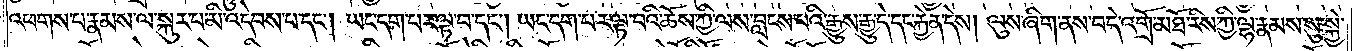འཕགས་པ་རྣམས་ལ་སྐུར་པ་མི་འདེབས་པ་དང༌། ཡང་དག་པར་ལྟ་བ་དང༌། ཡང་དག་པར་ལྟ་བའི་ཆོས་ཀྱི་ལས་བླངས་པའི་རྒྱུས་རྒྱུ་དེ་དང་རྐྱེན་དེས། ལུས་ཞིག་ནས་བདེ་འགྲོ་མཐོ་རིས་ཀྱི་ལྷ་རྣམས་སུ་སྐྱེ་
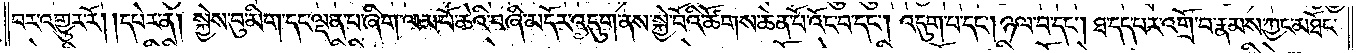བར་འགྱུར་རོ། །དཔེར་ན། སྐྱེས་བུ་མིག་དང་ལྡན་པ་ཞིག་ལམ་པོ་ཆེའི་བཞི་མདོར་འདུག་ནས་སྐྱེ་བོའི་ཚོགས་ཆེན་པོ་འོང་བ་དང༌། འདུག་པ་དང༌། ཉལ་བ་དང༌། ཐ་དད་པར་འགྲོ་བ་རྣམས་ཀྱང་མཐོང་
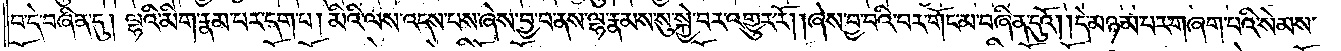བ་དེ་བཞིན་དུ། ལྷའི་མིག་རྣམ་པར་དག་པ། མིའི་ལས་འདས་པས་ཞེས་བྱ་བ་ནས་ལྷ་རྣམས་སུ་སྐྱེ་བར་འགྱུར་རོ། །ཞེས་བྱ་བའི་བར་གོང་མ་བཞིན་དུའོ། །དེ་མཉམ་པར་གཞག་པའི་སེམས་
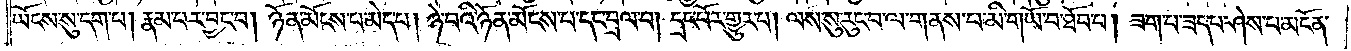ཡོངས་སུ་དག་པ། རྣམ་པར་བྱང་བ། ཉོན་མོངས་པ་མེད་པ། ཉེ་བའི་ཉོན་མོངས་པ་དང་བྲལ་བ། དྲང་པོར་གྱུར་པ། ལས་སུ་རུང་བ་ལ་གནས་པ་མི་གཡོ་བ་ཐོབ་པ། ཟག་པ་ཟད་པ་ཤེས་པ་མངོན་
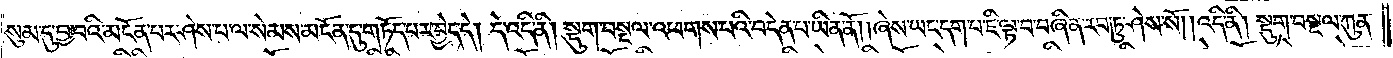སུམ་དུ་བྱ་བའི་མངོན་པར་ཤེས་པ་ལ་སེམས་མངོན་དུ་གཏོད་པར་བྱེད་དེ། དེ་འདི་ནི། སྡུག་བསྔལ་འཕགས་པའི་བདེན་པ་ཡིན་ནོ། །ཞེས་ཡང་དག་པ་ཇི་ལྟ་བ་བཞིན་རབ་ཏུ་ཤེས་སོ། །འདི་ནི། སྡུག་བསྔལ་ཀུན་
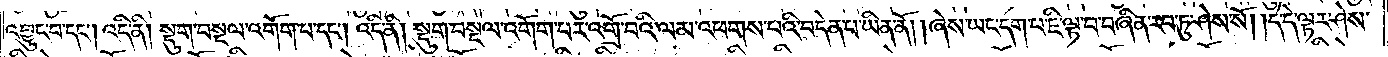འབྱུང་བ་དང༌། འདི་ནི། སྡུག་བསྔལ་འགོག་པ་དང༌། འདི་ནི། སྡུག་བསྔལ་འགོག་པར་འགྲོ་བའི་ལམ་འཕགས་པའི་བདེན་པ་ཡིན་ནོ། །ཞེས་ཡང་དག་པ་ཇི་ལྟ་བ་བཞིན་རབ་ཏུ་ཤེས་སོ། །དེ་དེ་ལྟར་ཤེས་
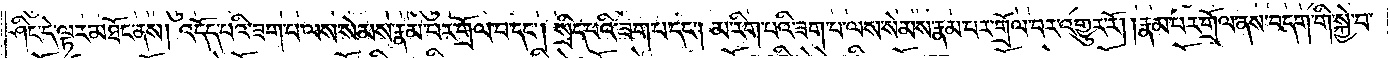ཤིང་དེ་ལྟར་མཐོང་ནས། འདོད་པའི་ཟག་པ་ལས་སེམས་རྣམ་པར་གྲོལ་བ་དང༌། སྲིད་པའི་ཟག་པ་དང༌། མ་རིག་པའི་ཟག་པ་ལས་སེམས་རྣམ་པར་གྲོལ་བར་འགྱུར་རོ། །རྣམ་པར་གྲོལ་ནས་བདག་གི་སྐྱེ་བ་
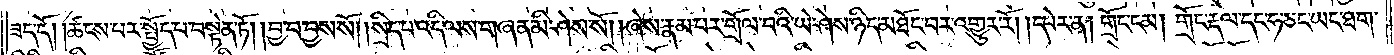ཟད་དོ། །ཚངས་པར་སྤྱོད་པ་བསྟེན་ཏོ། །བྱ་བ་བྱས་སོ། །སྲིད་པ་འདི་ལས་གཞན་མི་ཤེས་སོ། །ཞེས་རྣམ་པར་གྲོལ་བའི་ཡེ་ཤེས་ཉིད་མཐོང་བར་འགྱུར་རོ། །དཔེར་ན། གྲོང་ངམ། གྲོང་རྡལ་དང་ཧ་ཅང་ཡང་ཐག་
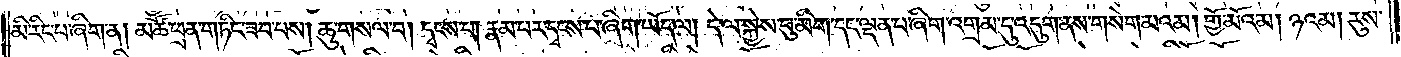མི་རིང་པ་ཞིག་ན། མཚོ་ཕྲན་གཏིང་ཟབ་པས། ཆུ་གསལ་བ། དྭགས་པ། རྣམ་པར་དྭངས་པ་ཞིག་ཡོད་ལ། དེ་ལ་སྐྱེས་བུ་མིག་དང་ལྡན་པ་ཞིག་འགྲམ་དུ་འདུག་ནས་གསེག་མའམ། གྱོ་མོའམ། ཉའམ། རུས་
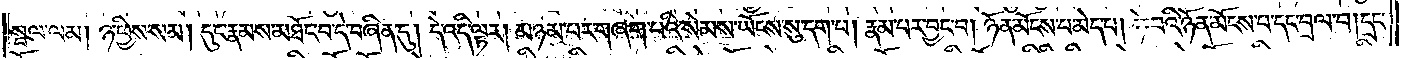སྦལ་ལམ། ཉ་ཕྱིས་སམ། དུང་རྣམས་མཐོང་བ་དེ་བཞིན་དུ། དེ་འདི་ལྟར། མཉམ་པར་གཞག་པའི་སེམས་ཡོངས་སུ་དག་པ། རྣམ་པར་བྱང་བ། ཉོན་མོངས་པ་མེད་པ། ཉེ་བའི་ཉོན་མོངས་པ་དང་བྲལ་བ། དྲང་
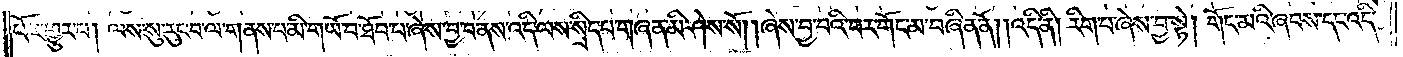པོར་གྱུར་པ། ལས་སུ་རུང་བ་ལ་གནས་པ་མི་གཡོ་བ་ཐོབ་པ་ཞེས་བྱ་བ་ནས་འདི་ལས་སྲིད་པ་གཞན་མི་ཤེས་སོ། །ཞེས་བྱ་བའི་བར་གོང་མ་བཞིན་ནོ། །འདི་ནི། རིག་པ་ཞེས་བྱ་སྟེ། གོང་མའི་ཞབས་དང་འདི་
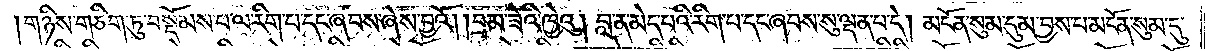།གཉིས་གཅིག་ཏུ་བསྡོམས་པ་ལ་རིག་པ་དང་ཞབས་ཞེས་བྱའོ། །བྲམ་ཟེའི་ཁྱེའུ། བླ་ན་མེད་པའི་རིག་པ་དང་ཞབས་སུ་ལྡན་བ་དེ། མངོན་སུམ་དུ་མ་བྱས་པ་མངོན་སུམ་དུ་
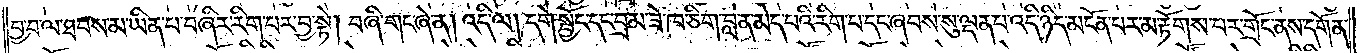བྱ་བ་ལ་ཐབས་མ་ཡིན་པ་བཞིར་རིག་པར་བྱ་སྟེ། བཞི་གང་ཞེ་ན། འདི་ལ། དགེ་སྦྱོང་དང་བྲམ་ཟེ་ཁ་ཅིག་བླ་ན་མེད་པའི་རིག་པ་དང་ཞབས་སུ་ལྡན་པ་འདི་ཉིད་མངོན་པར་མ་རྟོགས་པར་གྲོང་ནས་དགོན་
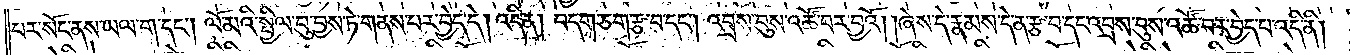པར་སོང་ནས་ཡལ་ག་དང༌། ལོ་མའི་སྤྱིལ་བུ་བྱས་ཏེ་གནས་པར་བྱེད་དེ། འདི་ན། བདག་ཅག་རྩ་བ་དང༌། འབྲས་བུས་འཚོ་བར་བྱའོ། །ཞེས་དེ་རྣམས་དེ་ན་རྩ་བ་དང་འབྲས་བུས་འཚོ་བར་བྱེད་པ་འདི་ནི།
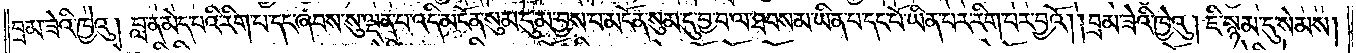བྲམ་ཟེའི་ཁྱེའུ། བླ་ན་མེད་པའི་རིག་པ་དང་ཞབས་སུ་ལྡན་པ་འདི་མངོན་སུམ་དུ་མ་བྱས་པ་མངོན་སུམ་དུ་བྱ་བ་ལ་ཐབས་མ་ཡིན་པ་དང་པོ་ཡིན་པར་རིག་པར་བྱའོ། །བྲམ་ཟེའི་ཁྱེའུ། ཇི་སྙམ་དུ་སེམས།
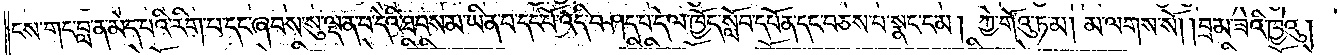ངས་གང་བླ་ན་མེད་པའི་རིག་པ་དང་ཞབས་སུ་ལྡན་པ་དེའི་ཐབས་མ་ཡིན་པ་དང་པོ་འདི་བཤད་པ་དེ་ལ་ཁྱོད་སློབ་དཔོན་དང་བཅས་པ་སྣང་ངམ། ཀྱེ་གོའུ་ཏ་མ། མ་ལགས་སོ། །བྲམ་ཟེའི་ཁྱེའུ།
